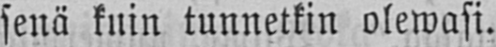senä kuin tunnetkin olewasi.
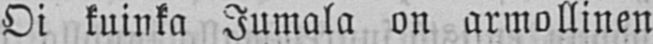Oi kuinka Jumala on armollinen
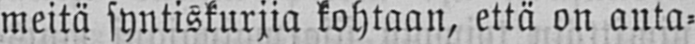meitä syntiskurjia kohtaan, että on anta-
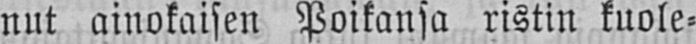nut ainokaisen Poikansa ristin kuole-
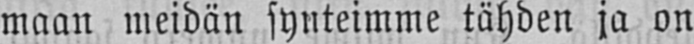maan meidän synteimme tähden ja on
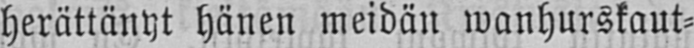herättänyt hänen meidän wanhurskaut-
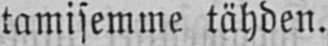tamisemme tähden.
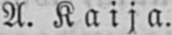A. Kaija.
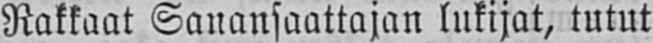Rakkaat Sanansaattajan lukijat, tutut
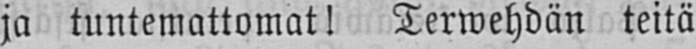ja tuntemattomat! Terwehdän teitä
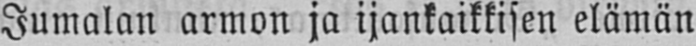Jumalan armon ja ijankaikkisen elämän
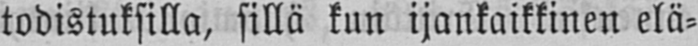todistuksilla, sillä kun ijankaikkinen elä-
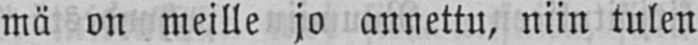mä on meille jo annettu, niin tulen
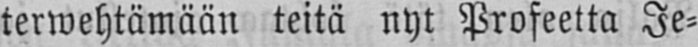terwehtämään teitä nyt Profeetta Je-
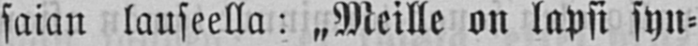saian lauseella: „Meille on lapsi syn-
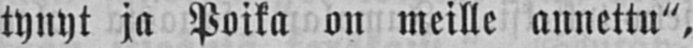tynyt ja Poika on meille annettu",
